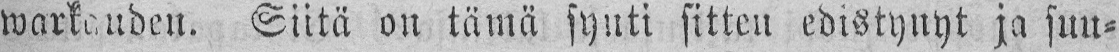warkauden. Siitä on tämä synti sitten edistynyt ja suu-
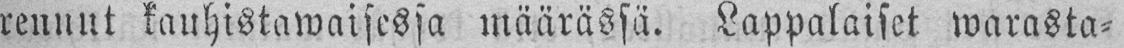rennut kauhistawaisessa määrässä. Lappalaiset warasta-
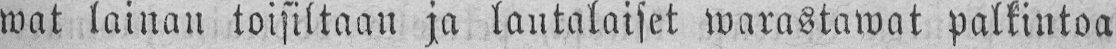wat lainan toisiltaan ja lautalaiset warastawat palkintoa
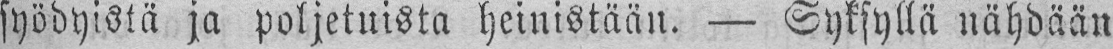syödyistä ja poljetuista heinistään. — Syksyllä nähdään
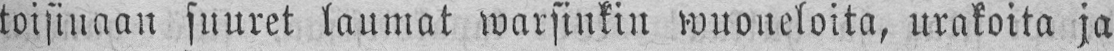toisinaan suuret laumat warsinkin wuoneloita, urakoita ja
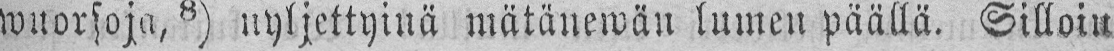wuorsoja, 8) nyljettyinä mätänewän lumen päällä. Silloin
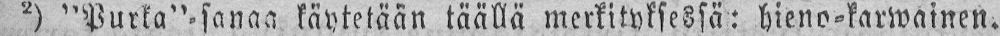2) "Purka"-sanaa käytetään täällä merkityksessä: hieno-karwainen.
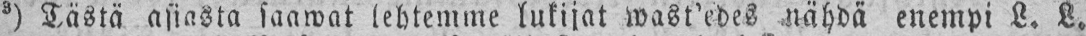3) Tästä asiasta saawat lehtemme lukijat wast'edes nähdä enempi L. L.
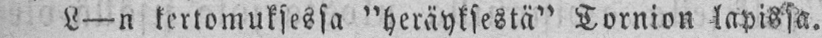L—n kertomuksessa "heräyksestä" Tornion lapissa.
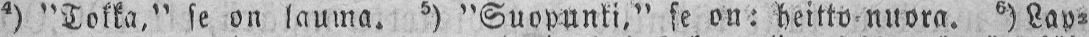4) "Tokka," se on lauma. 5) "Suopunki," se on: heitto-nuora. 6) Lap-
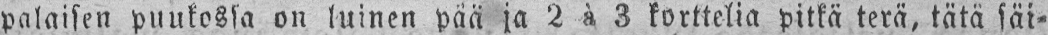palaisen puukossa on luinen pää ja 2 à 3 korttelia pitkä terä, tätä säi-
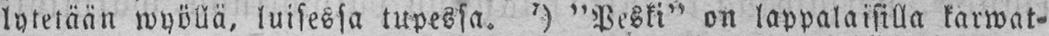lytetään wyöllä, luisessa tupessa. 7) "Peski" on lappalaisilla karwat-
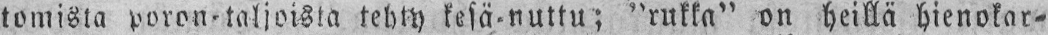tomista poron-taljoista tehty kesä-nuttu; "rukka" on heillä hienokar-
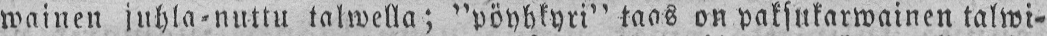wainen juhla-nuttu talwella; "pöyhkyri" taas on paksukarwainen talwi-
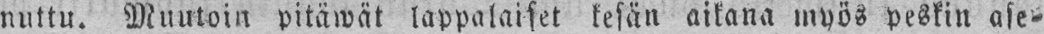nuttu. Muutoin pitäwät lappalaiset kesän aikana myös peskin ase-
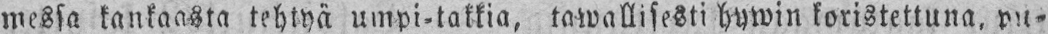messa kankaasta tehtyä umpi-takkia, tawallisesti hywin koristettuna, pu-
